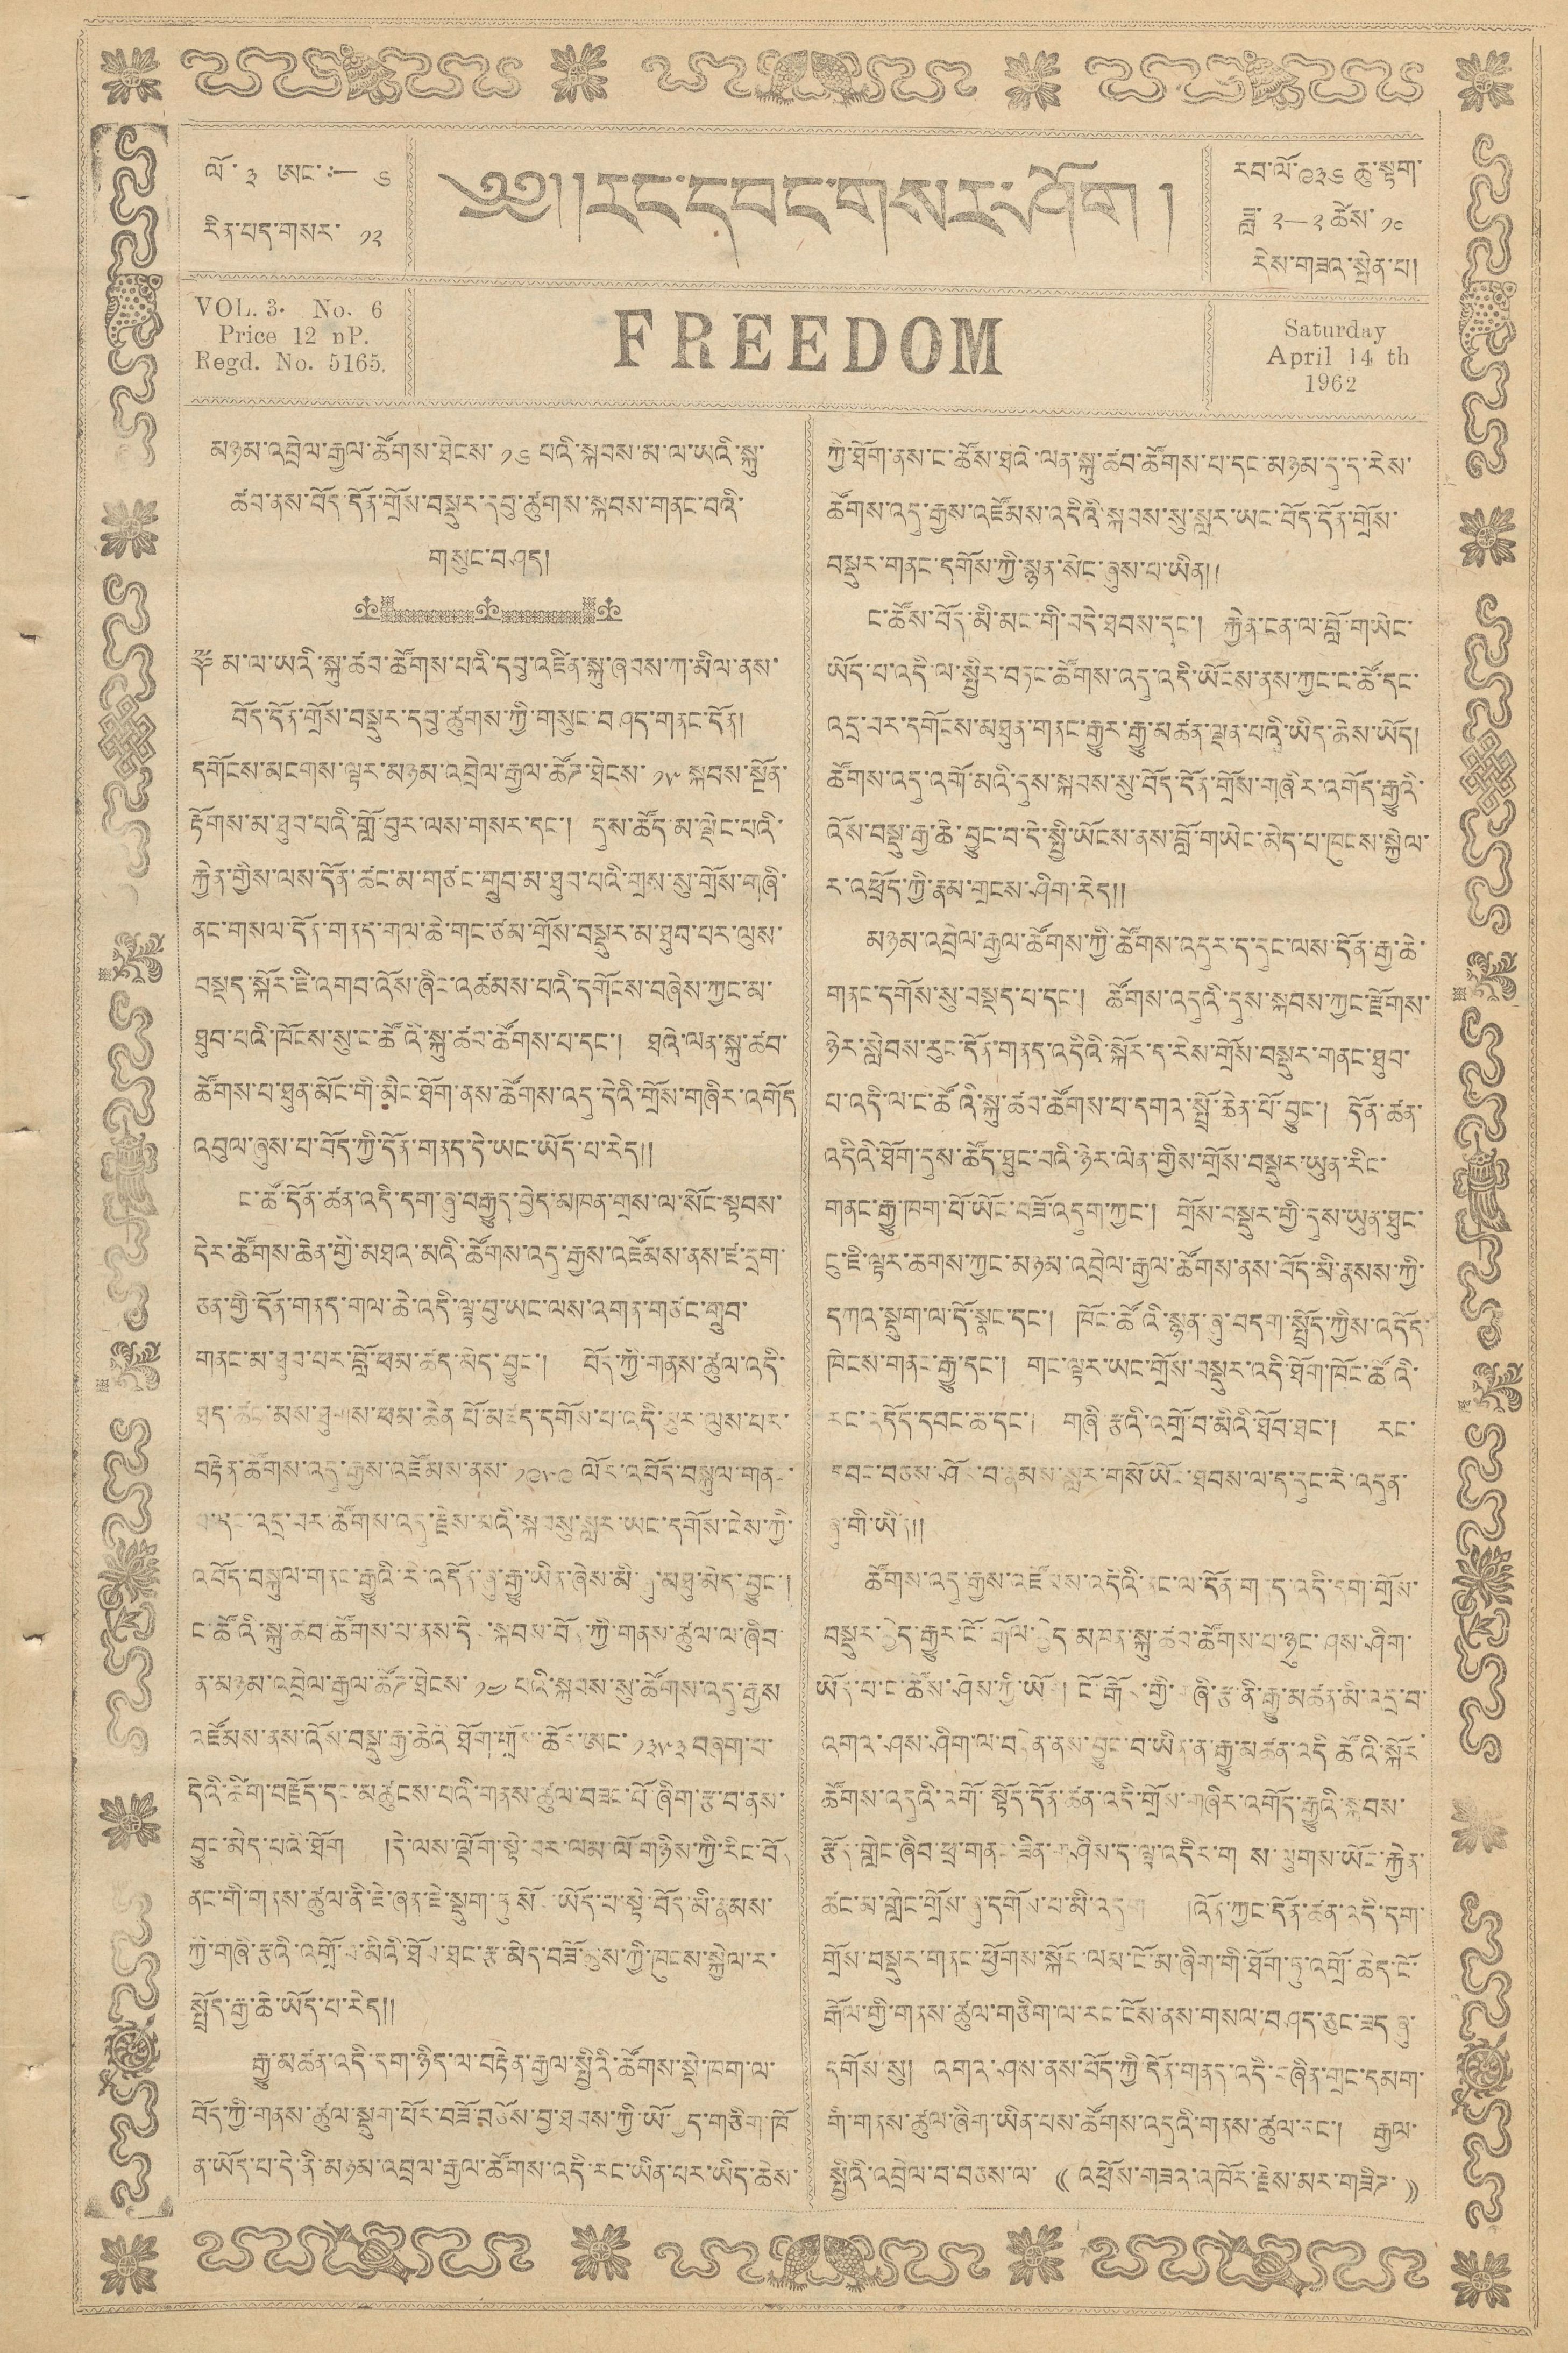ལོ་ ༣ ཨང་:— ༦
རིན་པད་གསར་ ༡༢
VOL. 3. No. 6
Price 12 nP.
Regd. No. 5165.
༄༅།རང་དབང་གསར་ཤོག །
FREEDOM
རབ་ལོ་ ༩༣༦ ཆུ་སྟག་
ཟླ་ ༢—༢ ཚེས་ ༡༠
རེས་གཟའ་སྤེན་པ།
Saturday
April 14 th
1962
མཉམ་འབྲེལ་རྒྱལ་ཚོགས་ཐེངས་ ༡༦ པའི་སྐབས་མ་ལ་ཡའི་སྐུ་
ཚབ་ནས་བོད་དོན་གྲོས་བསྡུར་དབུ་ཚུགས་སྐབས་གནང་བའི་
གསུང་བཤད།
ཀྱི་ཐོག་ནས་ང་ཚོས་ཐའི་ལན་སྐུ་ཚབ་ཚོགས་པ་དང་མཉམ་དུ་ད་རེས་
ཚོགས་འདུ་རྒྱས་འཛོམས་འདིའི་སྐབས་སུ་སླར་ཡང་བོད་དོན་གྲོས་
བསྡུར་གནང་དགོས་ཀྱི་སྙན་སེང་ཞུས་པ་ཡིན།།
ང་ཚོས་བོད་མི་མང་གི་བདེ་ཐབས་དང་། རྐྱེན་ངན་ལ་བློ་གཡེང་
ཡོད་པ་འདི་ལ་སྤྱིར་བཏང་ཚོགས་འདུ་འདི་ཡོངས་ནས་ཀྱང་ང་ཚོ་དང་
འདྲ་བར་དགོངས་མཐུན་གནང་རྒྱུར་རྒྱུ་མཚན་ལྡན་པའི་ཡིད་ཆེས་ཡོད།
ཚོགས་འདུ་འགོ་མའི་དུས་སྐབས་སུ་བོད་དོན་གྲོས་གཞི་ར་འགོད་རྒྱུའི་
འོས་བསྡུ་རྒྱ་ཆེ་བྱུང་བ་དེ་སྤྱི་ཡོངས་ནས་བློ་གཡེང་མེད་པ་ཁུངས་སྐྱེལ་་
ར་འཕྲོད་ཀྱི་རྣམ་གྲངས་ཤིག་རེད།༎
༈ མ་ལ་ཡའི་སྐུ་ཚབ་ཚོགས་པའི་དབུ་འཛིན་སྐུ་ཞབས་ཀ་མིལ་ནས་
བོད་དོན་གྲོས་བསྡུར་དབུ་ཚུགས་ཀྱི་གསུང་བཤད་གནང་དོན།
དགོངས་མངགས་ལྟར་མཉམ་འབྲེལ་རྒྱལ་ཚོཌ་ཐེངས་ ༡༥ སྐབས་སྔོན་
རྟོགས་མ་ཐུབ་པའི་གློ་བུར་ལས་གསར་དང་། དུས་ཚོད་མ་ལྡེང་པའི་
རྐྱེན་གྱིས་ལས་དོན་ཚང་མ་གཙང་གྲུབ་མ་ཐུབ་པའི་གྲས་སུ་གྲོས་གཞི་
ནང་གསལ་དོན་གནད་གལ་ཆེ་གང་ཙམ་གྲོས་བསྡུར་མ་ཐུབ་པར་ལུས་
བསྡད་སྐོར་ཇི་འགབ་འོས་ཞིང་འཚམས་པའི་དགོངས་བཞེས་ཀྱང་མ་
ཐུབ་པའི་ཁོངས་སུ་ང་ཚོའི་སྐུ་ཚབ་ཚོགས་པ་དང་། ཐའི་ལན་སྐུ་ཚབ་
ཚོགས་པ་ཐུན་མོང་གི་མིང་ཐོག་ནས་ཚོགས་འདུ་དེའི་གྲོས་གཞིར་འགོད
འབུལ་ཞུས་པ་བོད་ཀྱི་དོན་གནད་དེ་ཡང་ཡོད་པ་རེད།།
ང་ཚོ་དོན་ཚན་འདི་དག་ཞུ་བརྒྱུད་བྱེད་མཁན་གྲས་ལ་སོང་སྟབས་
དེར་ཚོགས་ཆེན་གྱི་མཐའ་མའི་ཚོགས་འདུ་རྒྱས་འཛོམས་ནས་ཛ་དྲག་
ཅན་གྱི་དོན་གནད་གལ་ཆེ་འདི་ལྟ་བུ་ཡང་ལས་འགན་གཙང་གྲུབ་
གནང་མ་ཐུབ་པར་བློ་ཕམ་ཚད་མེད་བྱུང་། བོད་ཀྱི་གནས་ཚུལ་འདི་
ཐད་ཚབ་མས་ཐུགས་ཕམ་ཆེན པོ་མཛད་དགོས་པ་འདི་མུར་ལུས་པར་
བརྟེན་ཚོགས་འདུ་རྒྱས་འཛོམས་ནས་ ༡༩༥༩ ལོར་འབོད་བསྐུལ་གནང་
པ་དང་འདྲ་བར་ཚོགས་འདུ་རྗེས་མའི་སྐབསུ་སླར་ཡང་དགོས་ངེས་ཀྱི་
འབོད་བསྐུལ་གནང་རྒྱུའི་རེ་འདོན་ཞུ་རྒྱུ་ཡིན་ཞེས་མི་ཞུ་མཐུ་མེད་བྱུང་།
ང་ཚོའི་སྐུ་ཚབ་ཚོགས་པ་ནས་དེང་སྐབས་བོད་ཀྱི་གནས་ཚུལ་ལ་ཞིབ་
ན་མཉམ་འབྲེལ་རྒྱལ་ཚོཌ་ཐེངས་ ༡༤ པའི་སྐབས་སུ་ཚོགས་འདུ་རྒྱས་
འཛོམས་ནས་འོས་བསྡུ་རྒྱ་ཆེའི ཐོག་གྲོས་ཆོད་ཨང་ ༡༣༥༣ བཞག་པ་
དེའི་ཚིག་བརྗོད་དང་མཚུངས་པའི་གནས་ཚུལ་བཟང་པོ་ཞིག་རྩ་བ་ནས་
བྱུང་མེད་པའི་ཐོག །དེ་ལས་ལྡོག་སྟེ་བར་ལམ་ལོ་གཉིས་ཀྱི་རིང་བོད་
ནང་གི་གནས་ཚུལ་ནི་ཇེ་ཞན་ཇེ་སྡུག་ཏུ་སོང་ཡོད་པ་སྟེ་བོད་མི་རྣམས་
ཀྱི་གཞི་རྩའི་འགྲོ་བ་མིའི་ཐོབ་ཐང་རྩ་མེད་བཟོ་མུས་ཀྱི་ཁུངས་སྐྱེལ་ར་
སྤྲོད་རྒྱ་ཆེ་ཡོད་པ་རེད།།
མཉམ་འབྲེལ་རྒྱལ་ཚོགས་ཀྱི་ཚོགས་འདུར་ད་དུང་ལས་དོན་རྒྱ་ཆེ་
གནང་དགོས་སུ་བསྡད་པ་དང་། ཚོགས་འདུའི་དུས་སྐབས་ཀྱང་རྫོགས་
ཉེར་སླེབས་རུང་དོན་གནད་འདིའི་སྐོར་ད་རེས་གྲོས་བསྡུར་གནང་ཐུབ་
པ་འདི་ལ་ང་ཚོའི་སྐུ་ཚབ་ཚོགས་པ་དགའ་སྤྲོ་ཆེན་པོ་བྱུང་། དོན་ཚན་
འདིའི་ཐོག་དུས་ཚོད་ཐུང་བའི་ཉེར་ལེན་གྱིས་གྲོས་བསྡུར་ཡུན་རིང་
གནང་རྒྱུ་ཁག་པོ་ཡོང་བཟོ་འདུག་ཀྱང་། གྲོས་བསྡུར་གྱི་དུས་ཡུན་ཐུང་
ངུ་ཇི་ལྟར་ཆགས་ཀྱང་མཉམ་འབྲེལ་རྒྱལ་ཚོགས་ནས་བོད་མི་རྣམས་ཀྱི་
དཀའ་སྡུག་ལ་དོ་སྣང་དང་། ཁོང་ཚོའི་སྙན་ཞུ་བདག་སྤྲོད་ཀྱིས་འདོད་
ཁེངས་གནང་རྒྱུ་དང་། གང་ལྟར་ཡང་གྲོས་བསྡུར་འདི་ཐོག་ཁོང་ཚོའི་
རང་འདོད་དབང་ཆ་དང་། གཞི་རྩའི་འགྲོ་བ་མིའི་ཐོབ་ཐང་། རང་
དབང་བཅས་ཤོར་བ་རྣམས་སླར་གསོ ཡོང་ཐབས་ལ་ད་དུང་རེ་འདུན་
ཞུ་གི་ཡིན།།
ཚོགས་འདུ་རྒྱས་འཛོམས་འདིའི་ནང་ལ་དོན་གནད་འདི་དག་གྲོས་
བསྡུར་བྱེད་རྒྱུར་ངོ་རྒོལ་བྱེད་མཁན་སྐུ་ཚབ་ཚོགས་པ་ཉུང་ཤས་ཤིག་
ཡོད་པ་ང་ཚོས་ཤེས་ཀྱི་ཡོད། ངོ་རྒོལ་གྱི་གཞི་རྩ་ནི་རྒྱུ་མཚན་མི་འདྲ་བ་
འགའ་ཤས་ཤིག་ལ་བརྟེན་ནས་བྱུང་བ་ཡིན་ན་རྒྱུ་མཚན་འདི ཚོའི་སྐོར་
ཚོགས་འདུའི་འགོ་སྟོད་དོན་ཚན་འདི་གྲོས་གཞིར་འགོད་རྒྱུའི་སྐབས་
རྩོད་གླེང་ཞིབ་ཕྲ་གནང་ཟིན་གཤིས་ད་ལྟ་འདིར་གས་ལུགས་ཡོང་རྐྱེན་
ཚང་མ་གླེང་གྲོས་ཞུ་དགོས་པ་མི་འདུག །འོན་ཀྱང་དོན་ཚན་འདི་དག་
གྲོས་བསྡུར་གནང་ཕྱོགས་སྐོར་ལམ་ངོ་མ་ཞིག་གི་ཐོག་ཏུ་འགྲོ་ཆེད་ངོ་
རྒོལ་གྱི་གནས་ཚུལ་གཅིག་ལ་རང་ངོས་ནས་གསལ་བཤད་ཅུང་ཟད་ཞུ་
དགོས་སུ། འགའ་ཤས་ནས་བོད་ཀྱི་དོན་གནད་འདི་བཞིན་གྲང་དམག་
གི་གནས་ཚུལ་ཞིག་ཡིན་པས་ཚོགས་འདུའི་གནས་ཚུལ་དང་། རྒྱལ་
སྤྱིའི་འབྲེལ་བ་བཅས་ལ་ ((འཕྲོས་གཟའ་འཁོར་རྗེས་མར་གཟིཌ་))
རྒྱུ་མཚན་འདི་དག་ཉིད་ལ་བརྟེན་རྒྱལ་སྤྱིའི་ཚོགས་སྡེ་ཁག་ལ་
བོད་ཀྱི་གནས་ཚུལ་སྡུག་པོར་བཟོ་བཅོས་བྱ་ཐབས་ཀྱི་ཡོ་བྱད་གཅིག་ཁོ་
ན་ཡོད་པ་དེ་ནི་མཉམ་འབྲལ་རྒྱལ་ཚོགས་འདི་རང་ཡིན་པར་ཡིད་ཆེས་
